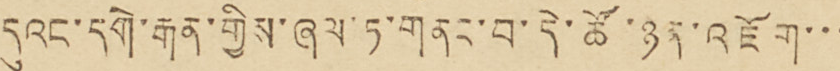དུའང་དགེ་རྒན་གྱིས་ཞལ་ཏ་གནང་བ་དེ་ཚོ་ཉན་འཇོག་་་
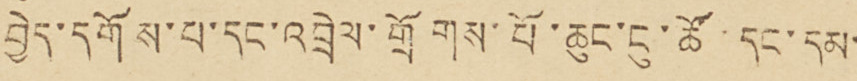བྱེད་དགོས་པ་དང་འབྲེལ་གྲོགས་པོ་ཆུང་ངུ་ཚོ་དང་དམ་
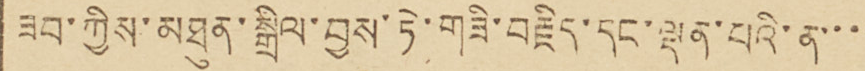ཟབ་ཀྱིས་མཐུན་སྒྲིལ་བྱས་ཏེ་གཟི་བརྗིད་དང་ལྡན་པའི་ན་་་་
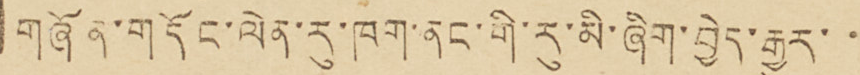གཞོན་གདོང་ལེན་རུ་ཁག་ནང་གི་རུ་མི་ཞིག་བྱེད་རྒྱུར་་་
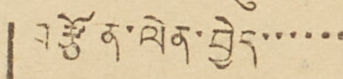བརྩོན་ལེན་བྱེད་་་་་་
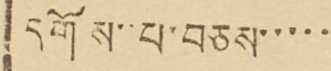དགོས་་པ་བཅས་་་་་་
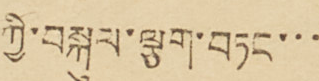ཀྱི་བསྐུལ་ལྕག་བཏང་་་
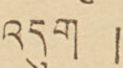འདུག །
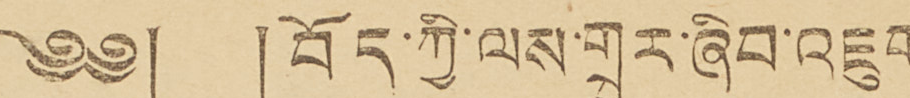༄༅། །བོད་ཀྱི་ལས་གྲྭར་ཞིབ་འཇུག་
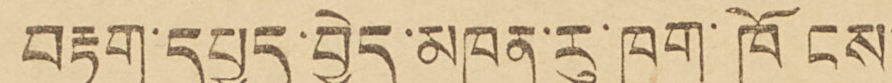བརྟག་དཔྱད་བྱེད་མཁན་རུ་ཁག་ཁོངས་
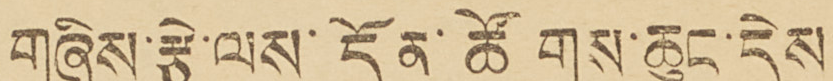གཞིས་རྩེ་ལས་དོན་ཚོགས་ཆུང་དེས་
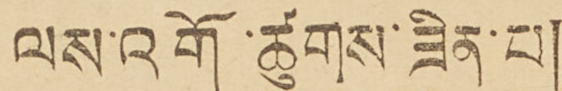ལས་འགོ་ཚུགས་ཟིན་པ།
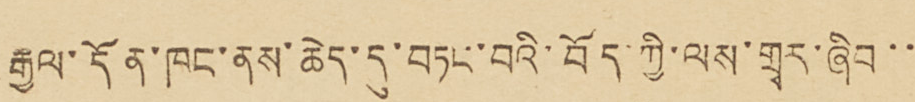རྒྱལ་དོན་ཁང་ནས་ཆེད་དུ་བཏང་བའི་བོད་ཀྱི་ལས་གྲྭར་ཞིབ་་་
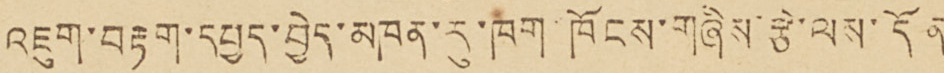འཇུག་བརྟག་དཔྱད་བྱེད་མཁན་རུ་ཁག ཁོངས་གཞིས་རྩེ་ལས་དོན་
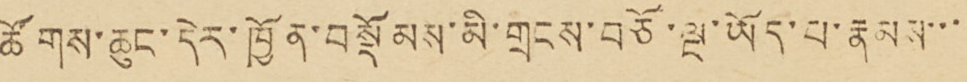ཚོགས་ཆུང་དེར་ཁྱོན་བསྡོམས་མི་གྲངས་བཅོ་ལྔ་ཡོད་པ་རྣམས་་་་
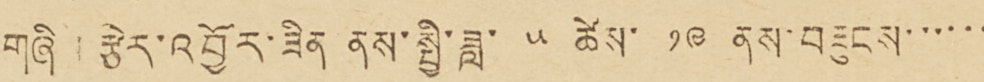གཞི་རྩེར་འབྱོར་ཟིན་ནས་སྤྱི་ཟླ་ ༥ ཚེས་ ༡༩ ནས་བཟུངས་་་་་་
